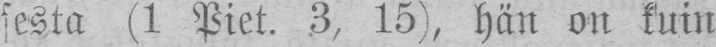sesta (1 Piet. 3, 15), hän on kuin
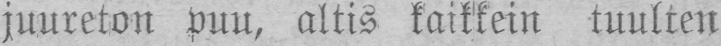juureton puu, altis kaikkein tuulten
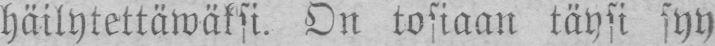häilytettäwäksi. On tosiaan täysi syy
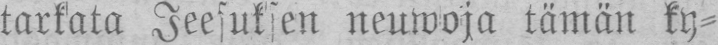tarkata Jeesuksen neuwoja tämän ky-
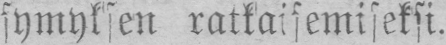symyksen ratkaisemiseksi.
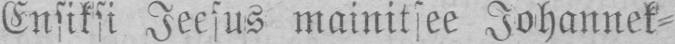Ensiksi Jeesus mainitsee Johannek-
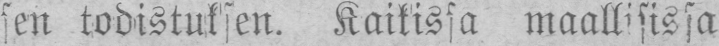sen todistuksen. Kaikissa maallisissa
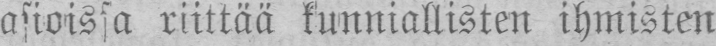asioissa riittää kunniallisten ihmisten
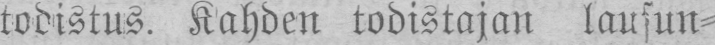todistus. Kahden todistajan lausun-
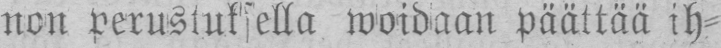non perustuksella woidaan päättää ih-
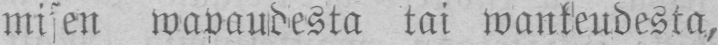misen wapaudesta tai wankeudesta,
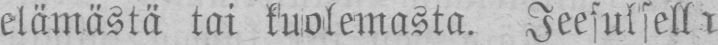elämästä tai kuolemasta. Jeesuksella
